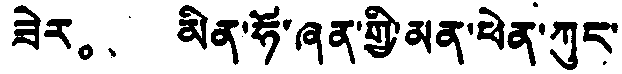ཟེར。 མིན་ཧོ་ཞན་གྱི་མན་ཕེན་ཀུང་
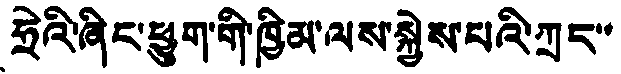ཧྲེའི་ཞིང་ཕྱུག་གི་ཁྱིམ་ལས་སྐྱེས་པའི་ཀྲང་་
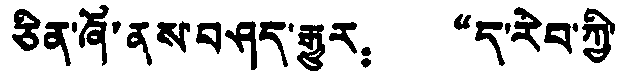ཅིན་ཞོ་ནས་བཤད་རྒྱུར： “ད་རེབ་ཀྱི་
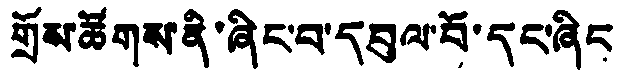གྲོས་ཚོགས་ནི་ཞིང་བ་དབུལ་བོ་དང་ཞིང་
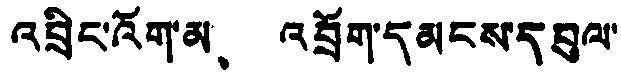འབྲིང་འོག་མ、 འབྲོག་དམངས་དབུལ་
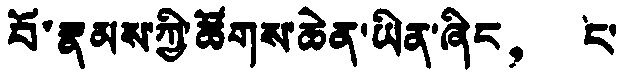པོ་རྣམས་ཀྱི་ཚོགས་ཆེན་ཡིན་ཞིང， ང་
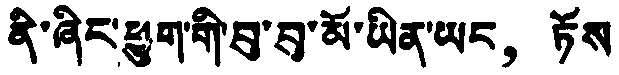ནི་ཞིང་ཕྱུག་གི་བུ་བུ་མོ་ཡིན་ཡང， ཏོས
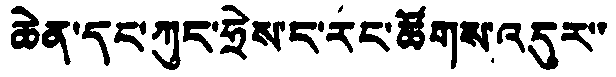ཆེན་དང་ཀུང་ཧྲེས་ང་རང་ཚོགས་འདུར་་
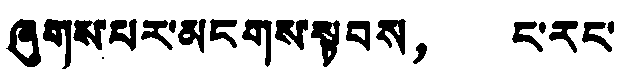ཞུགས་པར་མངགས་སྟབས， ང་རང་
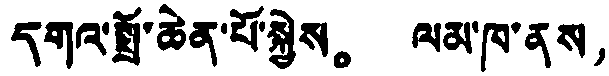དགའ་སྤྲོ་ཆེན་པོ་སྐྱེས。 ལམ་ཁ་ནས，
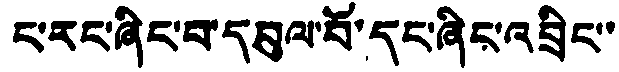ང་རང་ཞིང་བ་དབུལ་བོ་དང་ཞིང་འབྲིང་་
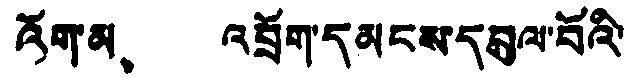འོག་མ、 འབྲོག་དམངས་དབུལ་བོའི་
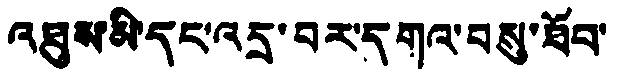འཐུས་མི་དང་འདྲ་བར་དགའ་བསུ་ཐོབ་
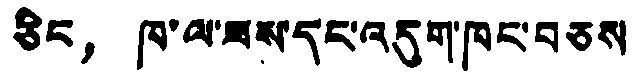ཅིང， ཁ་ལ་ཟས་དང་འདུག་ཁང་བཅས
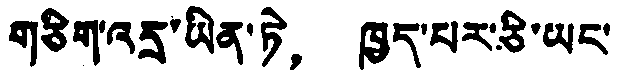གཅིག་འདྲ་ཡིན་ཏེ， ཁྱད་པར་ཅི་ཡང་
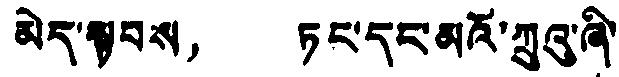མེད་སྟབས， ཏང་དང་མའོ་ཀྲུའུ་ཞི་
